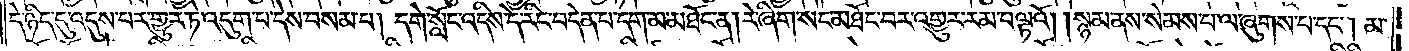དེ་ཉིད་དུ་འདུས་པར་གྱུར་ཏེ་འདུག་པ་དེས་བསམ་པ། དགེ་སློང་འདིས་དེ་རིང་བདེན་པ་དག་མ་མཐོང་ན། རེ་ཞིག་སང་མཐོང་བར་འགྱུར་རམ་བལྟའོ། །སྙམ་ནས་སེམས་པ་ལ་ཞུགས་པ་དང༌། མ་
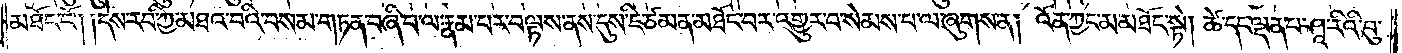མཐོང་ངོ༌། །དེས་རབ་ཀྱི་མཐའ་བའི་བསམ་གཏན་བཞི་བ་ལ་རྣམ་པར་བལྟས་ནས་དུས་ཇི་ཙམ་ན་མཐོང་བར་འགྱུར་བ་སེམས་པ་ལ་ཞུགས་ན། འོན་ཀྱང་མ་མཐོང་སྟེ། ཚེ་དང་ལྡན་པ་ཤཱ་རིའི་བུ་
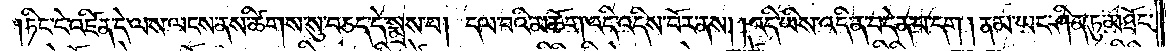ཏིང་ངེ་འཛིན་དེ་ལས་ལངས་ནས་ཚིགས་སུ་བཅད་དེ་སྨྲས་པ། དལ་བའི་མཆོག་འདི་འདིས་བོར་ནས། །འདི་ཡིས་འདི་ན་བདེན་པ་དག །ནམ་ཡང་ཤིན་ཏུ་མཐོང་
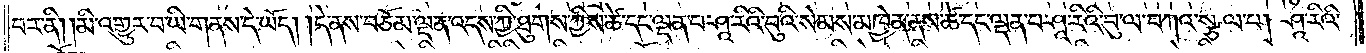བར་ནི། །མི་འགྱུར་བ་ཡི་གནས་དེ་ཡོད། །དེ་ནས་བཅོམ་ལྡན་འདས་ཀྱི་ཐུགས་ཀྱིས་ཚེ་དང་ལྡན་པ་ཤཱ་རིའི་བུའི་སེམས་མཁྱེན་ནས་ཚེ་དང་ལྡན་པ་ཤཱ་རིའི་བུ་ལ་བཀའ་སྩལ་པ། ཤཱ་རིའི་
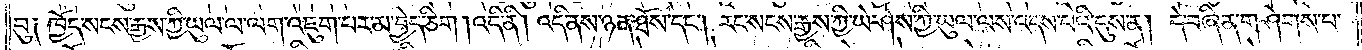བུ༑ ཁྱོད་སངས་རྒྱས་ཀྱི་ཡུལ་ལ་ལག་འཇུག་པར་མ་བྱེད་ཅིག །འདི་ནི། འདི་ནས་ཉན་ཐོས་དང༌། རང་སངས་རྒྱས་ཀྱི་ཡེ་ཤེས་ཀྱི་ཡུལ་ལས་འདས་པའི་དུས་ན། དེ་བཞིན་གཤེགས་པ་
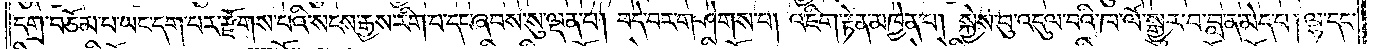དགྲ་བཅོམ་པ་ཡང་དག་པར་རྫོགས་པའི་སངས་རྒྱས་རིག་བ་དང་ཞབས་སུ་ལྡན་པ། བདེ་བར་གཤེགས་པ། འཇིག་རྟེན་མཁྱེན་པ། སྐྱེས་བུ་འདུལ་བའི་ཁ་ལོ་སྒྱུར་བ་བླ་ན་མེད་པ། ལྷ་དང་
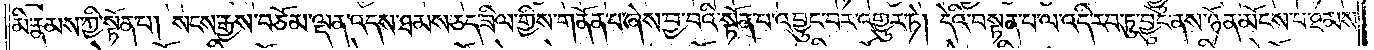མི་རྣམས་ཀྱི་སྟོན་པ། སངས་རྒྱས་བཅོམ་ལྡན་འདས་ཐམས་ཅད་ཟིལ་གྱིས་གནོན་པ་ཞེས་བྱ་བའི་སྟོན་པ་འབྱུང་བར་འགྱུར་ཏེ། དེའི་བསྟན་པ་ལ་འདི་རབ་ཏུ་བྱུང་ནས་ཉོན་མོངས་པ་ཐམས་
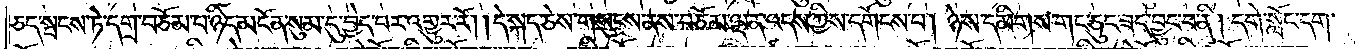ཅད་སྤངས་ཏེ་དགྲ་བཅོམ་པ་ཉིད་མངོན་སུམ་དུ་བྱེད་པར་འགྱུར་རོ། །དེ་སྐད་ཅེས་གསུངས་ནས་བཅོམ་ལྡན་འདས་ཀྱིས་དགོངས་པ། ཉེས་དམིགས་གང་ཅུང་ཟད་བྱུང་བ་ནི། དགེ་སློང་དག་
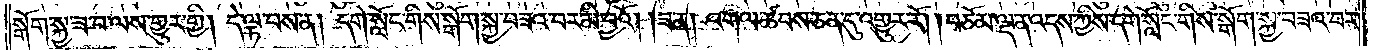སྒོག་སྐྱ་ཟ་བ་ལས་གྱུར་གྱི། དེ་ལྟ་བས་ན། དགེ་སློང་གིས་སྒོག་སྐྱ་བཟའ་བར་མི་བྱའོ། །ཟ་ན། འགལ་ཚབས་ཅན་དུ་འགྱུར་རོ། །བཅོམ་ལྡན་འདས་ཀྱིས་དགེ་སློང་གིས་སྒོག་སྐྱ་བཟའ་བར་
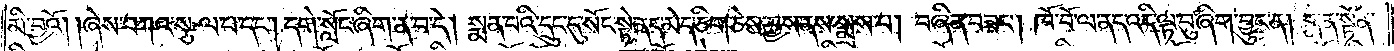མི་བྱའོ། །ཞེས་བཀའ་སྩལ་པ་དང༌། དགེ་སློང་ཞིག་ན་བ་དེ། སྨན་པའི་དྲུང་དུ་སོང་སྟེ་ནད་མེད་ཅིག་ཅེས་བྱས་ནས་སྨྲས་པ། བཞིན་བཟང༌། ཁོ་བོ་ལ་ནད་འདི་ལྟ་བུ་ཞིག་བྱུང་ན། སྨན་སྟོན་
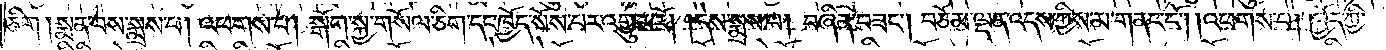ཅིག །སྨན་པས་སྨྲས་པ། འཕགས་པ། སྒོག་སྐྱ་གསོལ་ཅིག་དང་ཁྱོད་སོས་པར་འགྱུར་རོ། །དེས་སྨྲས་པ། བཞིན་བཟང༌། བཅོམ་ལྡན་འདས་ཀྱིས་མ་གནང་ངོ༌། །འཕགས་པ། ཁྱོད་ཀྱི་
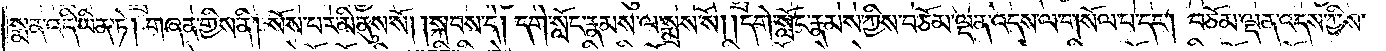སྨན་འདི་ཡིན་ཏེ། གཞན་གྱིས་ནི། སོས་པར་མི་ནུས་སོ། །སྐབས་དེ། དགེ་སློང་རྣམས་ལ་སྨྲས་སོ། །དགེ་སློང་རྣམས་ཀྱིས་བཅོམ་ལྡན་འདས་ལ་གསོལ་པ་དང༌། བཅོམ་ལྡན་འདས་ཀྱིས་
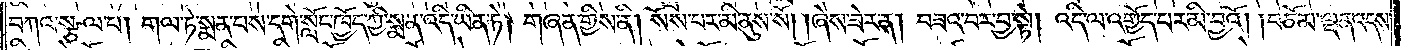བཀའ་སྩལ་པ། གལ་ཏེ་སྨན་པས་དགེ་སློང་ཁྱོད་ཀྱི་སྨན་འདི་ཡིན་ཏེ། གཞན་གྱིས་ནི། སོས་པར་མི་ནུས་སོ། །ཞེས་ཟེར་ན། བཟའ་བར་བྱ་སྟེ། འདི་ལ་འགྱོད་པར་མི་བྱའོ། །བཅོམ་ལྡན་འདས་
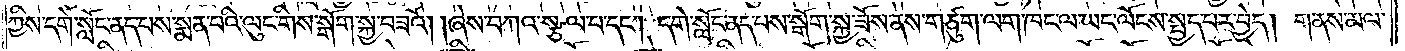ཀྱིས་དགེ་སློང་ནད་པས་སྨན་པའི་ལུང་གིས་སྒོག་སྐྱ་བཟའོ། །ཞེས་བཀའ་སྩལ་པ་དང༌། དགེ་སློང་ནད་པས་སྒོག་སྐྱ་ཟོས་ནས་གཙུག་ལག་ཁང་ལ་ཡང་ལོངས་སྤྱད་པར་བྱེད། གནས་མལ་
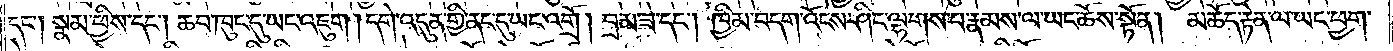དང༌། སྣམ་ཕྱིས་དང༌། ཆབ་ཁུང་དུ་ཡང་འཇུག །དགེ་འདུན་གྱི་ནང་དུ་ཡང་འགྲོ། བྲམ་ཟེ་དང༌། ཁྱིམ་བདག་འོངས་ཤིང་ལྷགས་པ་རྣམས་ལ་ཡང་ཆོས་སྟོན། མཆོད་རྟེན་ལ་ཡང་ཕྱག་
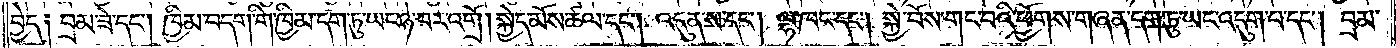བྱེད། བྲམ་ཟེ་དང༌། ཁྱིམ་བདག་གི་ཁྱིམ་དག་ཏུ་ཡང་ཉེ་བར་འགྲོ། སྐྱེད་མོས་ཚལ་དང༌། འདུན་ས་དང༌། ལྷ་ཁང་དང༌། སྐྱེ་བོས་གང་བའི་ཕྱོགས་གཞན་དག་ཏུ་ཡང་འདུག་པ་དང༌། བྲམ་
